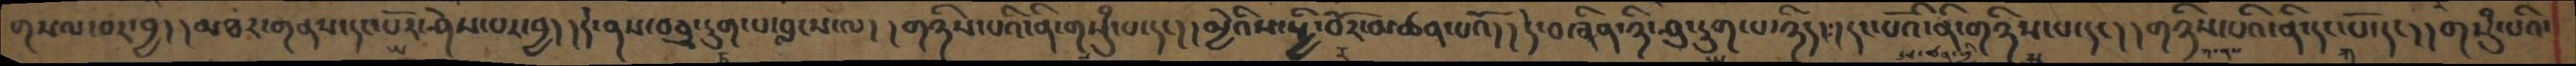གསལ་བར་བྱ། །མཐར་གནས་དང་པོར་ཤེས་པར་བྱ། །དེ་ནས་བཅུ་དྲུག་པ་བླངས་ལ། །གཉིས་པའི་ནི་གསུཾ་པ་དང། །མྱེའིས་སྤྱི་བོར་མཚན་པའོ། །དེ་བཞིན་ཉི་ཤུ་དྲུག་པ་ཉིད། །དང་པོའི་ནི་གཉིས་པ་དང། །གཉིས་པའི་ནི་དང་པོ་དང། །གསུཾ་པའི་
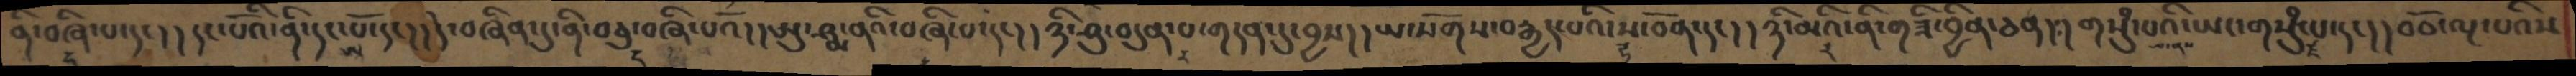ནི་བཞི་པ་དང། །དང་པོའི་ནི་དང་པོ་དང།།དེ་བཞིན་དུ་ནི་བཅུ་བཞི་པའོ།།ཨུ་ཤྨ་ནའི་བཞི་པ་དང།།ཉི་ཤུ་བདུན་པ་གདན་དུ་བྱས།།ཡ་སོགས་བརྒྱད་པའི་ས་བོན་དང།།ཉི་མའི་ནི་གཟི་བྱིན་ཅན།།གསུཾ་པའི་ཡང་གསུཾ་པ་དང།།བཅོ་ལྔ་པའིས
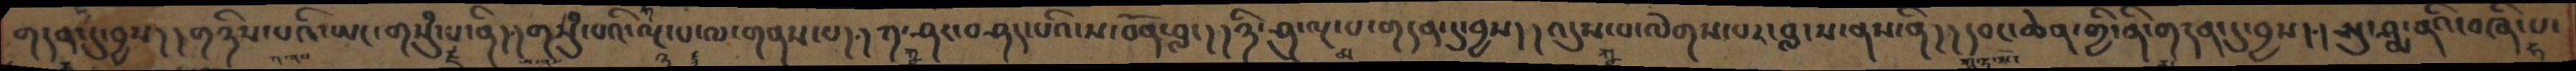གདན་དུ་བྱས།།གཉིས་པའི་ཡང་གསུཾ་པ་ནི།།གསུཾ་པའི་ལྔ་པ་ལ་གནས་པ།།ཀ་ཤར་བཤད་པའི་ས་བོན་བླ།།ཉི་ཤུ་ལྔ་པ་གདན་དུ་བྱས།།འདུས་པ་ལེགས་པར་བླངས་ནས་ནི།།དབང་ཆེན་གྱི་ནི་གདན་དུ་བྱས།།ཨུ་ཤྨ་ནའི་བཞི་པ་
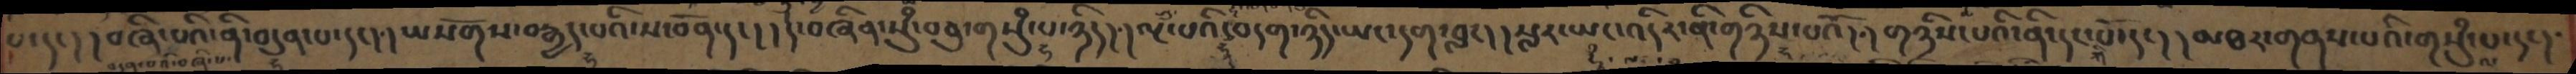པ་དང། །བཞི་པའི་ནི་བདུན་པ་དང། །ཡསོགས་བརྒྱད་པའི་ས་བོན་དང། །དེ་བཞིན་སུཾ་བཅུ་གསུཾ་པ་ཉིད། །ལྔ་པའི་བདག་ཉིད་ཡང་དག་བླང། །སླར་ཡང་འདིར་ནི་གཉིས་པའོ། །གཉིས་པའི་ནི་དང་པོ་དང། །མཐར་གནས་པའི་གསུཾ་པ་དང།
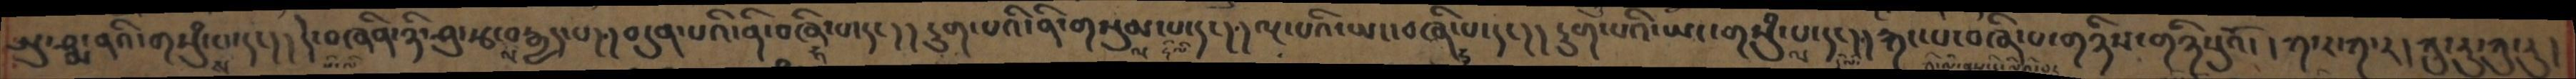ཨུ་ཤྨ་ནའི་གསུཾ་པ་དང། །དེ་བཞིན་ཉི་ཤུ་རྩ་བརྒྱད་པ། །བདུན་པའི་ནི་བཞི་པ་དང། །དྲུག་པའི་ནི་གསུམ་པ་དང། །ལྔ་པའི་ཡང་བཞི་པ་དང། །དྲུག་པའི་ཡང་གསུཾ་པ་དང། །རྐང་པ་བཞི་པ་གཉིས་གཉིསུའོ། །ཀ་ར་ཀ་ར། ཀུ་རུ་ཀུ་རུ།
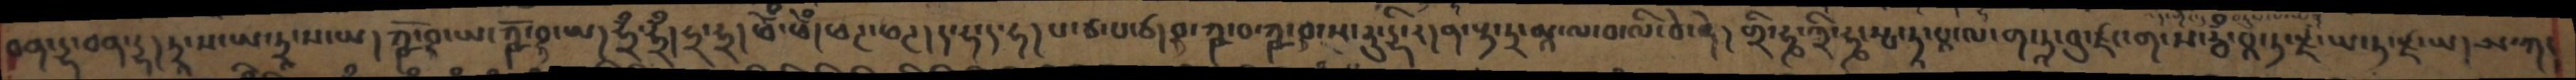བན་དྷ་བན་དྷ། ཏྲཱ་ས་ཡ་ཏྲཱ་ས་ཡ། ཀྵོ་བྷ་ཡ་ཀྵོ་བྷ་ཡ། ཧྲྃ་ཧྲྃ། ཧྲ་ཧྲ། ཕེྃ་ཕེྃ། ཕཊ་ཕཊ། ད་ཧ་ད་ཧ། པ་ཙ་པ་ཙ། བྷ་ཀྵ་བ་ཀྵ་བ་ས་རུ་དྷི་རདན་སྟ་ཏྲ་མཱ་ལ་བ་ལི་བེ་ཧེ། གྲི་ཧྞ་གྲི་ཧྞ་སྤ་ཏཱ་པཱ་ལ་ག་ཏཱ་བུ་ཛང་ག་ས་རྦྃ་པཱ་ཏ་ཛ་ཡ་ཏ་ཛ་ཡ། ཨ་ཀ
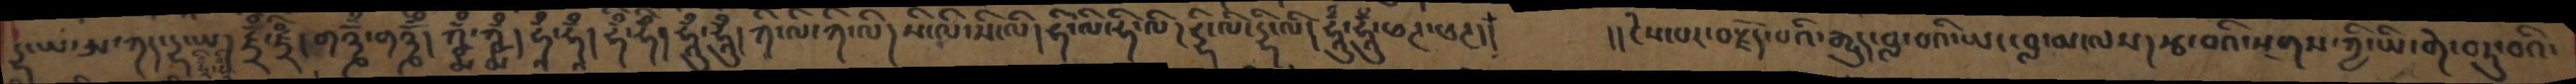དྷ་ཡ་ཨ་ཀད་དྷ་ཡ། ཛྲྃ་ཛྲྃ། གཉྞྃ་གཉྞྃ། ཀྵྨྃ་ཀྵྨྃ། ཧཱྃ་ཧཱྃ། ཧྃ་ཧྃ། ཧཱུྃ་ཧཱུྃ། ཀི་ལི་ཀི་ལི། སི་ལི་སི་ལི། ཧི་ལི་ཧི་ལི། དྷི་ལི་དྷི་ལི། ཧཱུྃ་ཧཱུྃ་ཕཊ་ཕཊ།།  །།ངེས་པར་བརྗོད་པའི་རྒྱུད་བླ་བའི་ཡང་བླ་མ་ལས། རྩ་བའི་སྔགས་ཀྱི་ཡི་གེ་བཏུ་བའི་
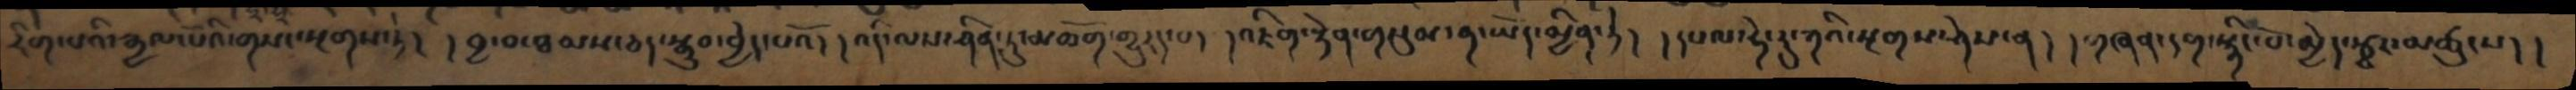རིགས་པའི་རྒྱལ་པོའི་གསང་སྔགས་ཏེ། །བྱ་བ་ཐམས་ཅད་སྒྲུབ་བྱེད་པའོ། །འདི་ལས་ཤིན་ཏུ་མཆོག་གྱུརད་པ། །འཇིག་རྟེན་གསུམ་ན་ཡོད་མྱིན་ཏེ། །དཔལ་ཧེ་རུ་ཀའི་སྔགས་ཤེས་ན། །གཞན་དག་སྙིང་པོ་མྱེད་སྦྱར་མཚུངས། །
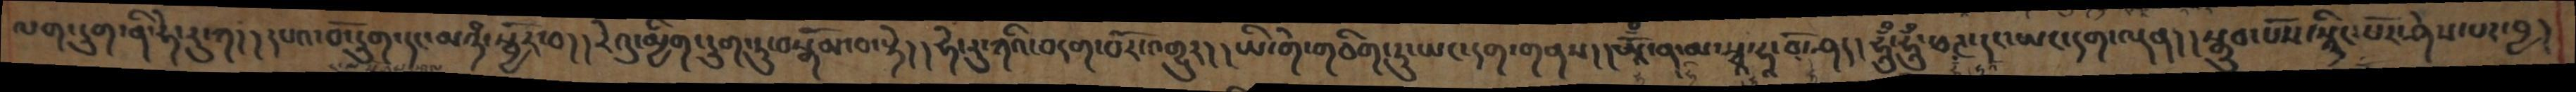ལག་དྲུག་ནི་ཧེ་རུ་ཀ། །དཔའ་བོ་དྲུག་དང་མཉཾ་སྦྱོར་བ། །རེའུ་མྱིག་དྲུག་ཏུ་བསྒོམ་བ་སྟེ། །ཧེ་རུ་ཀའི་བདག་པོར་འགྱུར། །ཡི་གེ་གཅིག་ཏུ་ཡང་དག་གནས། །ཨཱོྃ་ན་མ་སྭཱ་ཧཱ་བོ་ཤད། ཧཱུྃ་ཧཱུྃ་ཕཊ་དང་ཡང་དག་ལྡན། །སྒྲུབ་པོས་སྙིང་པོར་ཤེས་པར་བྱ།
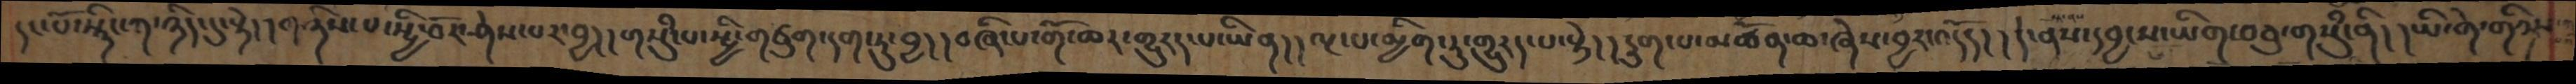དང་པོ་སྙིང་ཀ་ཉིད་དུ་སྟེ། །གཉིས་པ་སྤྱི་བོར་ཤེས་པར་བྱ། །གསུཾ་པ་སྤྱི་གཙུག་དག་ཏུ་བྱ། །བཞི་པ་གོ་ཆར་གྱུརད་པ་ཡིན། །ལྔ་པ་མྱིག་ཏུ་གྱུརད་པ་སྟེ། །དྲུག་པ་མཚོན་ཆ་ཞེས་བྱར་འདོད། །དེ་ནས་དབྱངས་ཡིག་བཅུ་གསུཾ་ནི། །ཡི་གེ་གཉིས་
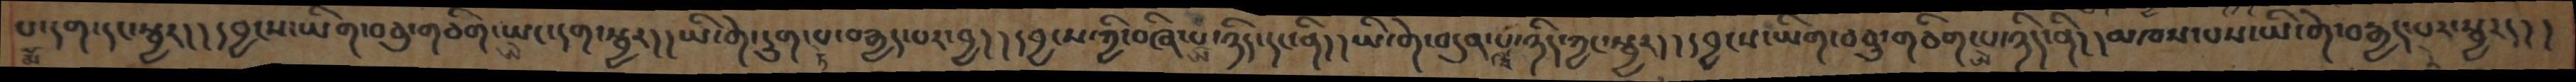པ་དག་དང་སྦྱོར། །དབྱངས་ཡིག་བཅུ་གཅིག་ཡང་དག་སྦྱར། །ཡི་གེ་དྲུག་པ་བརྒྱད་པར་བྱ། །དབྱངས་ཀྱི་བཞི་པ་ཉིད་དང་ནི། །ཡི་གེ་བདུན་པ་ཉིད་ཀྱང་སྦྱར། །དབྱངས་ཡིག་བཅུ་གཅིག་པ་ཉིད་ནི། །མཁས་པས་ཡི་གེ་བརྒྱད་པར་སྦྱརད། །
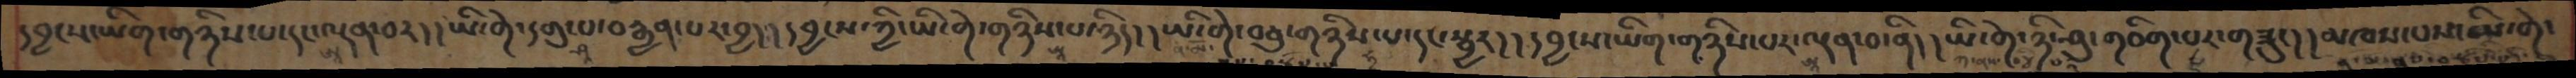དབྱངས་ཡིག་གཉིས་པ་དང་ལྡན་བར། །ཡི་གེ་དགུ་པ་བརྒྱན་པར་བྱ། །དབྱངས་ཀྱི་ཡི་གེ་གཉིས་པ་ཉིད། །ཡི་གེ་བཅུ་གཉིས་པ་དང་སྦྱར། །དབྱངས་ཡིག་གཉིས་པར་ལྡན་བ་ནི། །ཡི་གེ་ཉི་ཤུ་གཅིག་པར་གཟུང། །མཁས་པས་ཡི་གེ་
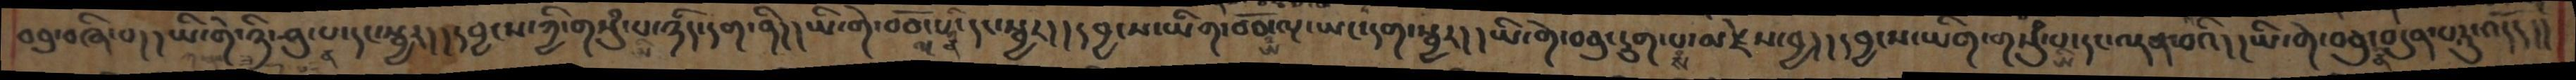བཅུ་བཞི་པ། །ཡི་གེ་ཉི་ཤུ་པ་དང་སྦྱར། །དབྱངས་ཀྱི་གསུཾ་པ་ཉིད་དག་ནི། །ཡི་གེ་བཅོ་ལྔ་ནི་དང་སྦྱར། །དབྱངས་ཡིག་བཅོ་ལྔ་ཡང་དག་སྦྱར། །ཡི་གེ་བཅུ་དྲུག་པ་མཛེས་བྱ། །དབྱངས་ཡིག་གསུཾ་པ་དང་ལྡན་བའི། །ཡི་གེ་བཅུ་བདུན་པརུ་འདོད། །
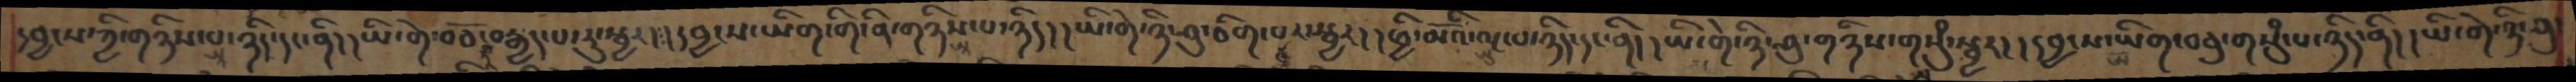དབྱངས་ཀྱི་གཉིས་པ་ཉིད་དང་ནི། །ཡི་གེ་བཅོ་བརྒྱད་པ་རུ་སྦྱར། །དབྱངས་ཡིག་གི་ནི་གཉིས་པ་ནི། །ཡི་གེ་ཉི་ཤུ་ཅིག་པར་སྦྱར། །ཕྱི་མོའི་ལྔ་པ་ཉིད་དང་ནི། །ཡི་གེ་ཉི་ཤུ་གཉིས་གསུཾ་སྦྱར། །དབྱངས་ཡིག་བཅུ་གསུཾ་པ་ཉིད་ནི། །ཡི་གེ་ཉི་ཤུ
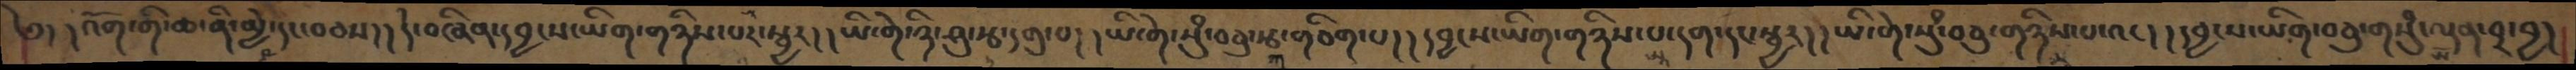༄། །འོག་གི་ཆ་ནི་མྱེ་དང་བཅས། །དེ་བཞིན་དབྱངས་ཡིག་གཉིས་པར་སྦྱར། །ཡི་གེ་ཉི་ཤུ་རྩ་དགུ་པ། །ཡི་གེ་སུཾ་བཅུ་རྩ་གཅིག་པ། །དབྱངས་ཡིག་གཉིས་པ་དག་དང་སྦྱར། །ཡི་གེ་སུཾ་བཅུ་གཉིས་པ་འང། །དབྱངས་ཡིག་བཅུ་གསུཾ་ལྡན་བར་བྱ།
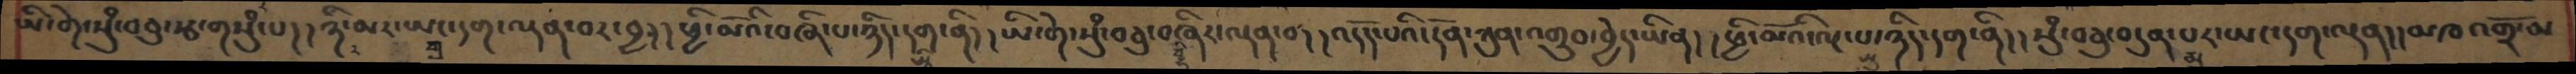ཡི་གེ་སུཾ་བཅུ་རྩ་གསུཾ་པ།།ཉི་མར་ཡང་དག་ལྡན་བར་བྱ།།ཕྱི་མོའི་བཞི་པ་ཉིད་དག་ནི།།ཡི་གེ་སུཾ་བཅུ་བཞིར་ལྡན་བ།།འདོད་པའི་དོན་ཀུན་འགྲུབ་བྱེད་ཡིན།།ཕྱི་མོའི་ལྔ་པ་ཉིད་དག་ནི།།སུཾ་བཅུ་བདུན་པར་ཡང་དག་ལྡན།།མཁའགྲོ་མ
